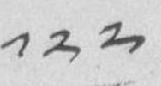༡༢༢
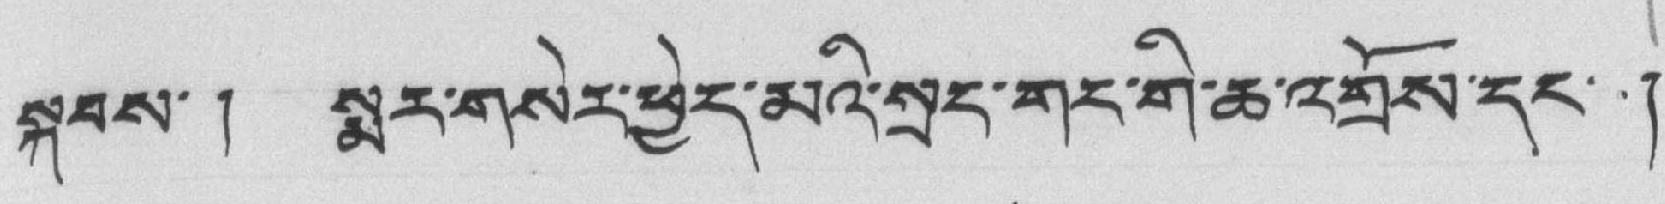སྐབས་། སྨར་གསེར་ཕྱེད་མའི་སྲང་གང་གི་ཆ་འགྲོས་དང་ །
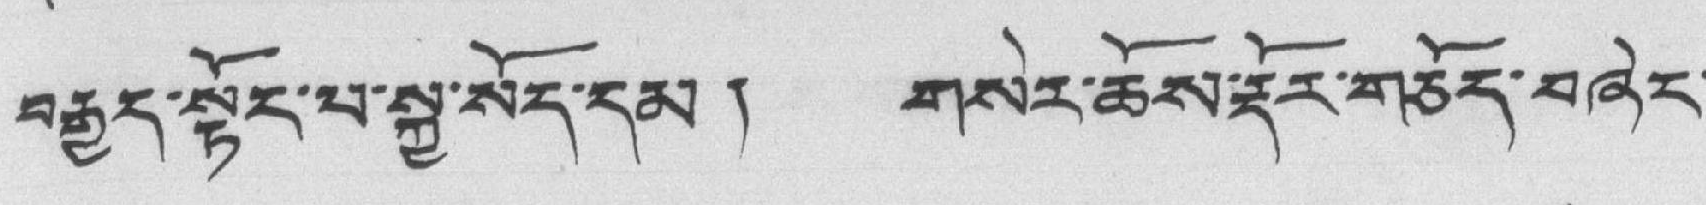བརྒྱད་སྟོང་པ་སྐྱ་སོད་དམ། གསེར་ཆོས་རྡོར་གཅོད་བཞེང་
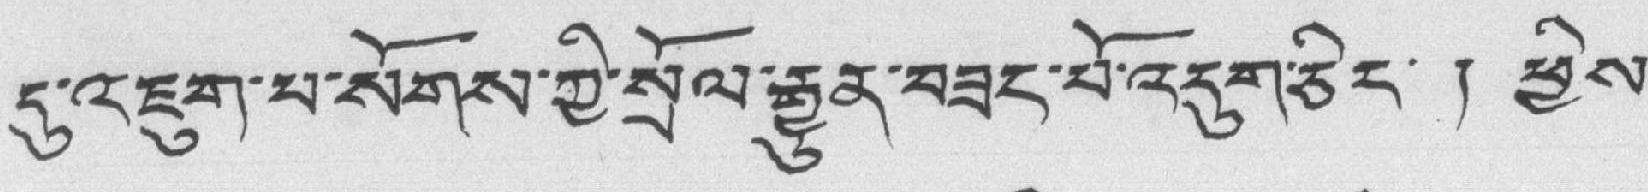དུ་འཇུག་པ་སོགས་ཀྱི་སྲོལ་རྒྱུན་བཟང་པོ་འདུག་ཅིང་ ། ཕྱིས་
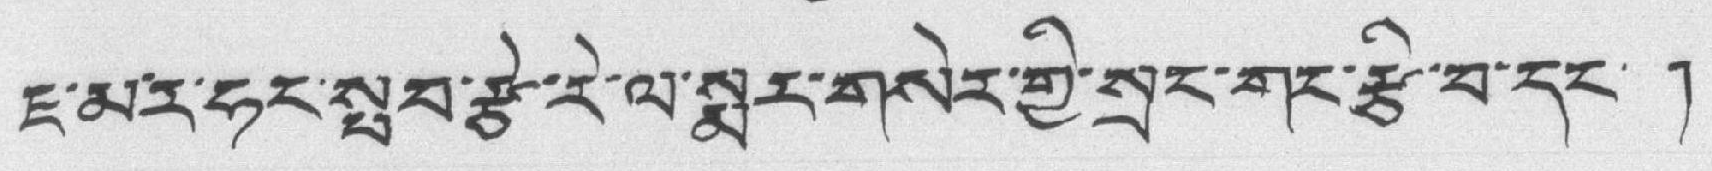ཇ་མར་ཧང་སྤབ་རྩེ་རེ་ལ་སྨར་གསེར་གྱི་སྲང་གང་རྩ་བ་དང་ །
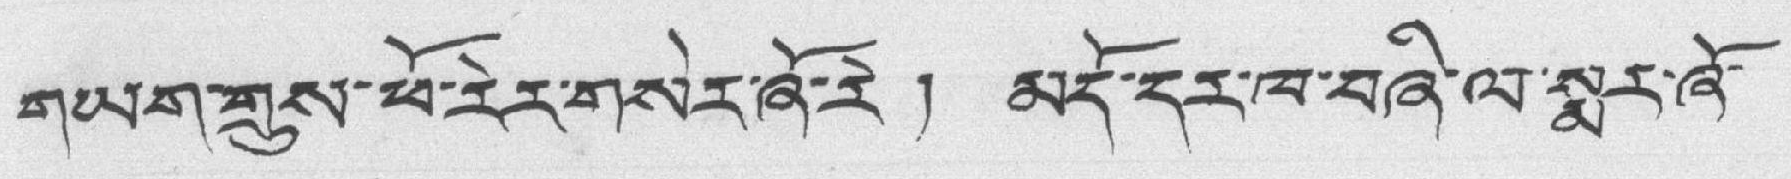གཡག་གྲུས་ཕོ་རེར་གསེར་ཞོ་རེ། མདོ་དར་ལ་བཞི་ལ་སྨར་ཞོ་
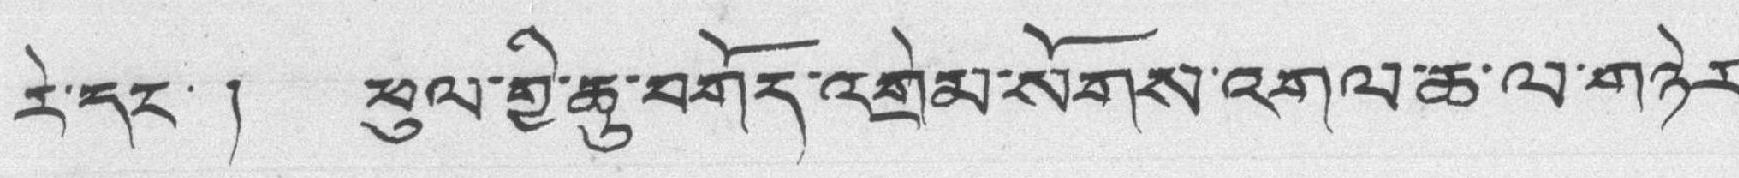རེ་དང་ ། ཕུལ་གྱི་ཆུ་བགོད་འགྲེམ་སོགས་འགལ་ཆ་ལ་གཉེར་
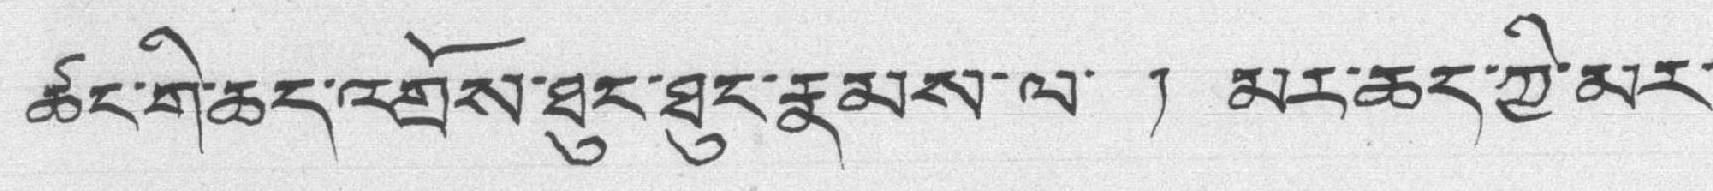ཚང་གི་ཆད་འགྲོས་ཐུང་ཐུང་རྣམས་ལ་ ། མར་ཆད་ཀྱི་མར་
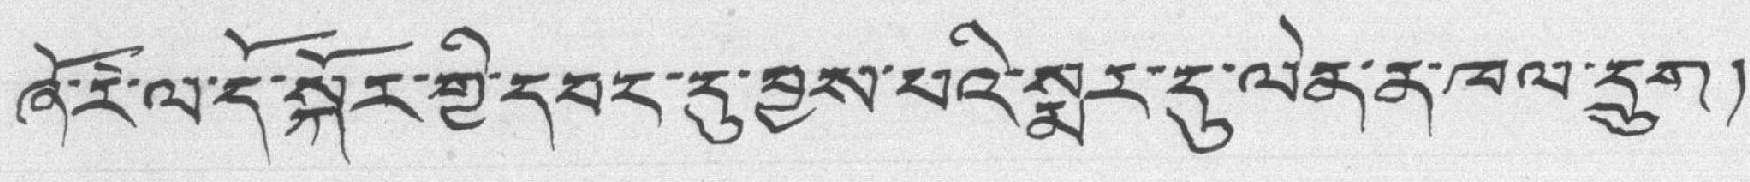ཞོ་རེ་ལ་དོ་སྐོར་གྱི་དབང་དུ་བྱས་པའི་སྨར་དུ་ལེན་ན་ཁལ་དྲུག།
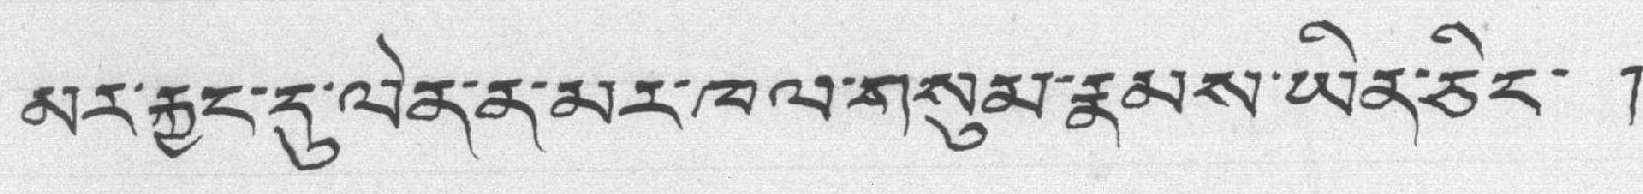མར་རྐྱང་དུ་ལེན་ན་མར་ཁལ་གསུམ་རྣམས་ཡིན་ཅིང་ །
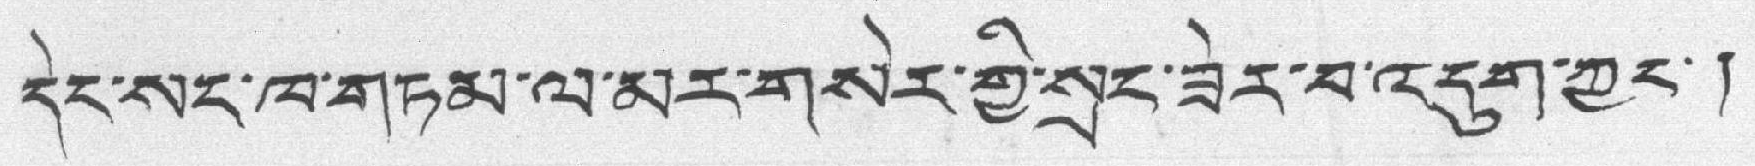དེང་སང་ཁ་གཏམ་ལ་མར་གསེར་གྱི་སྲང་ཟེར་བ་འདུག་ཀྱང་།
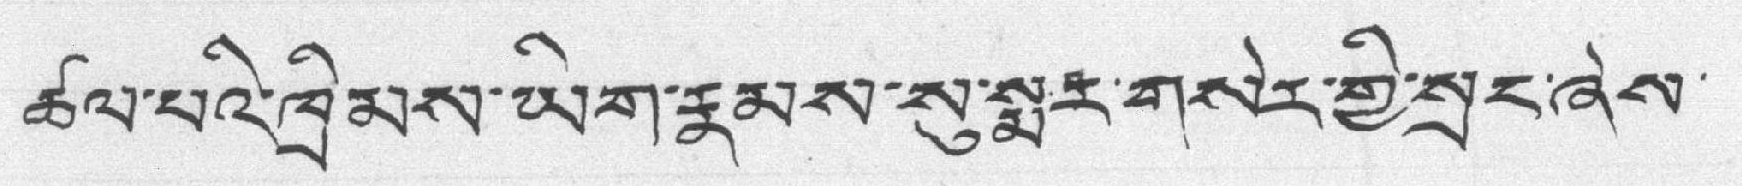ཚལ་པའི་ཁྲིམས་ཡིག་རྣམས་སུ་སྨར་གསེར་གྱི་སྲང་ཞེས་
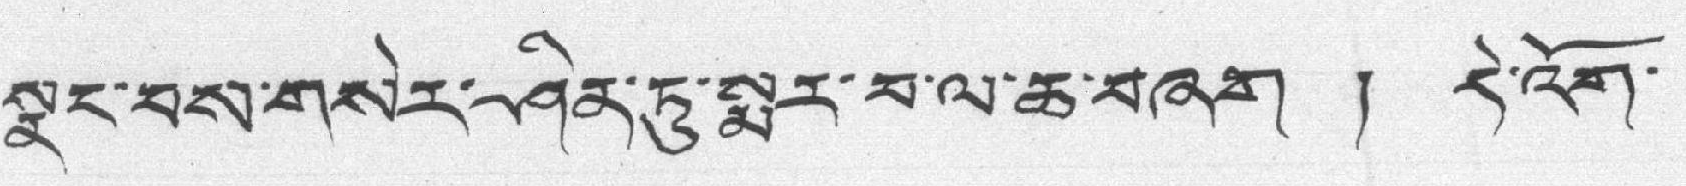སྣང་བས་གསེར་ཤིན་ཏུ་སྨར་བ་ལ་ཆ་བཞག ། དེ་འོག་
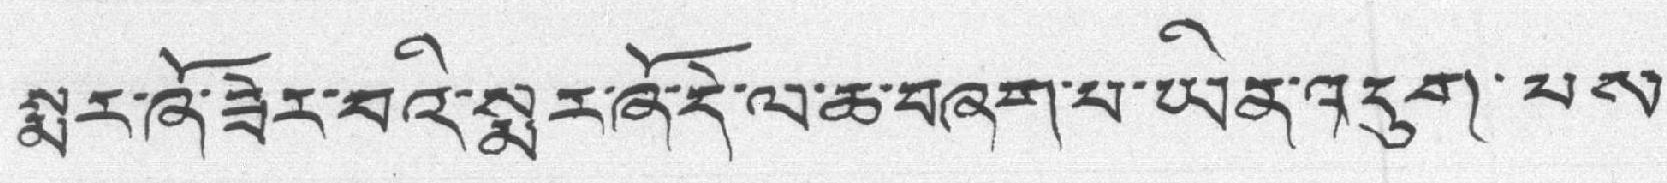སྨར་ཞོ་ཟེར་བའི་སྨར་ཞོ་དེ་ལ་ཆ་བཞག་པ་ཡིན་འདུག་པས་
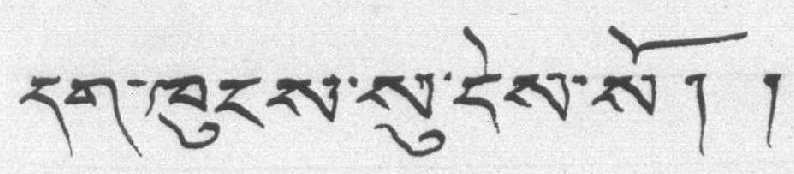དག་ཁུངས་སུ་ངེས་སོ། །
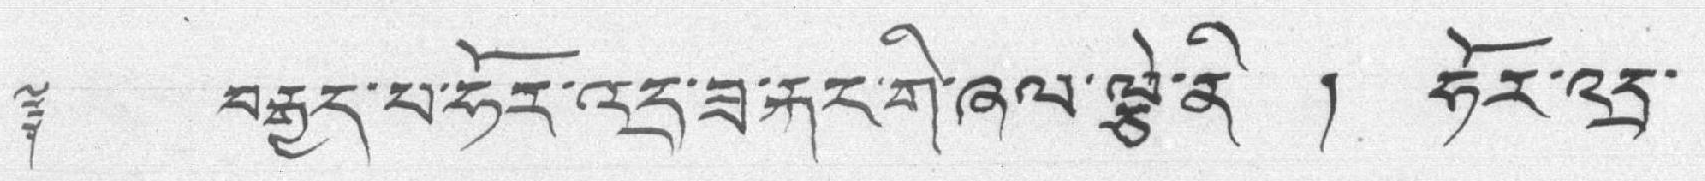༈ བརྒྱུད་པ་ཧོར་འདྲ་ཟ་རྐང་གི་ཞལ་ལྕེ་ནི་ ། ཧོར་འདྲ་
